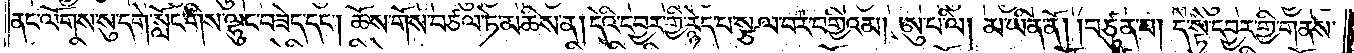ནང་ལོགས་སུ་དགེ་སློང་གིས་ལྷུང་བཟེད་དང༌། ཆོས་གོས་བཙལ་ཏེ་མཆིས་ན། དེའི་དབྱར་གྱི་རྙེད་པ་སྩལ་བར་བགྱིའམ། ཨུ་པ་ལི། མ་ཡིན་ནོ། །བཙུན་པ། དེ་སྟེ་དབྱར་གྱི་གནས་
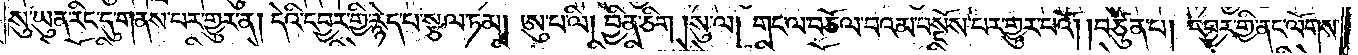སུ་ཡུན་རིང་དུ་གནས་པར་གྱུར་ན། དེའི་དབྱར་གྱི་རྙེད་པ་སྩལ་ཏམ། ཨུ་པ་ལི། བྱིན་ཅིག །སུ་ལ། གང་ལ་བཅོལ་པའམ་བསྔོས་པར་གྱུར་པའོ། །བཙུན་པ། དབྱར་གྱི་ནང་ལོགས་
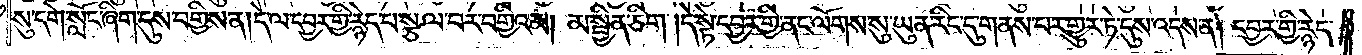སུ་དགེ་སློང་ཞིག་དུས་བགྱིས་ན། དེ་ལ་དབྱར་གྱི་རྙེད་པ་སྩལ་བར་བགྱིའམ། མ་སྦྱིན་ཅིག །དེ་སྟེ་དབྱར་གྱི་ནང་ལོགས་སུ་ཡུན་རིང་དུ་གནས་པར་གྱུར་ཏེ་དུས་འདས་ན། དབྱར་གྱི་རྙེད་
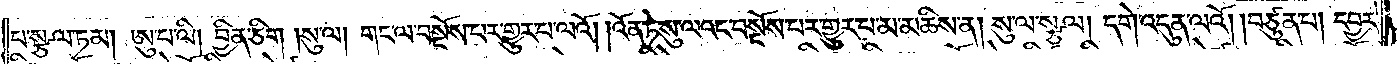པ་སྩལ་ཏམ། ཨུ་པ་ལི། བྱིན་ཅིག །སུ་ལ། གང་ལ་བསྔོས་པར་གྱུར་པ་ལའོ། །འོན་ཏེ་སུ་ལའང་བསྔོས་པར་གྱུར་པ་མ་མཆིས་ན། སུ་ལ་སྩལ། དགེ་འདུན་ལའོ། །བཙུན་པ། དབྱར་
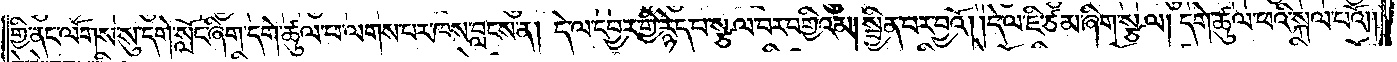གྱི་ནང་ལོགས་སུ་དགེ་སློང་ཞིག་དགེ་ཚུལ་ཕ་ལགས་པར་ཁས་བླངས་ན། དེ་ལ་དབྱར་གྱི་རྙེད་པ་སྩལ་བར་བགྱིའམ། སྦྱིན་པར་བྱའོ། །དེ་ལ་ཇི་ཙམ་ཞིག་སྩལ། དགེ་ཚུལ་ཕའི་སྐལ་པའོ༎
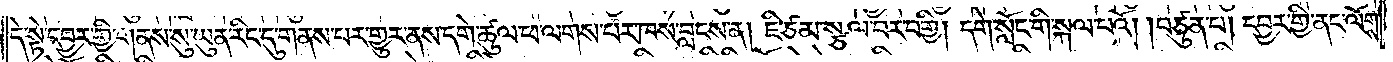དེ་སྟེ་དབྱར་གྱི་གནས་སུ་ཡུན་རིང་དུ་གནས་པར་གྱུར་ནས་དགེ་ཚུལ་ཕ་ལགས་པར་ཁས་བླངས་ན། ཇི་ཙམ་སྩལ་བར་བགྱི། དགེ་སློང་གི་སྐལ་པའོ། །བཙུན་པ། དབྱར་གྱི་ནང་ལོགས་
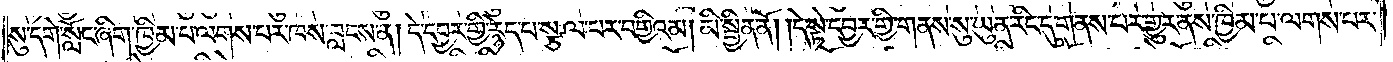སུ་དགེ་སློང་ཞིག་ཁྱིམ་པ་ལགས་པར་ཁས་བླངས་ན། དེ་དབྱར་གྱི་རྙེད་པ་སྩལ་པར་བགྱིའམ། མི་སྦྱིན་ནོ། །དེ་སྟེ་དབྱར་གྱི་གནས་སུ་ཡུན་རིང་དུ་གནས་པར་གྱུར་ནས་ཁྱིམ་པ་ལགས་པར་
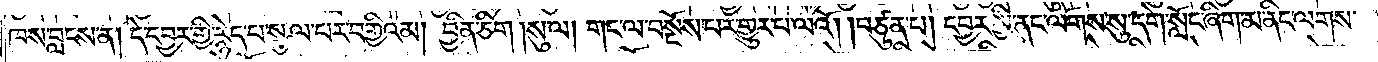ལས་བླངས་ན། དེ་དབྱར་གྱི་རྙེད་པ་སྩལ་པར་བགྱིའམ། བྱིན་ཅིག །སུ་ལ། གང་ལ་བསྔོས་པར་གྱུར་པ་ལའོ། །བཙུན་པ། དབྱར་གྱི་ནང་ལོགས་སུ་དགེ་སློང་ཞིག་མ་ནིང་ལགས་
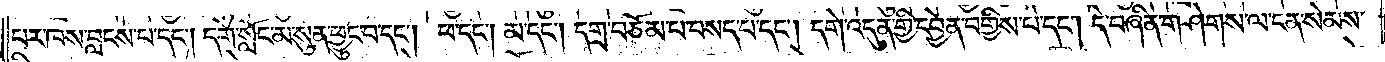པར་ཁས་བླངས་པ་དང༌། དགེ་སློང་མ་སུན་ཕྱུང་བ་དང༌། ཕ་དང༌། མ་དང༌། དགྲ་བཅོམ་པ་བསད་པ་དང༌། དགེ་འདུན་གྱི་དབྱེན་བགྱིས་པ་དང༌། དེ་བཞིན་གཤེགས་ལ་ངན་སེམས་
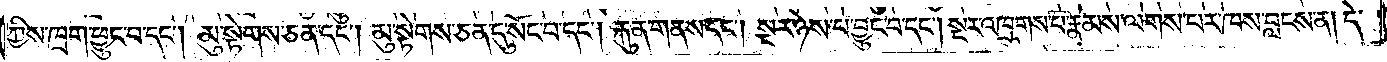ཀྱིས་ཁྲག་ཕྱུང་བ་དང༌། མུ་སྟེགས་ཅན་དང༌། མུ་སྟེགས་ཅན་དུ་སོང་བ་དང༌། རྐུན་གནས་དང༌། སྔར་ཉེས་པ་བྱུང་བ་དང༌། སྔར་འཁྲུགས་པ་རྣམས་ལགས་པར་ཁས་བླངས་ན། དེ་
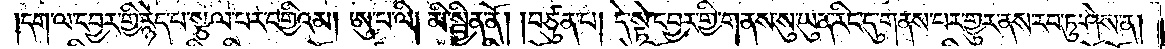།དག་ལ་དབྱར་གྱི་རྙེད་པ་སྩལ་པར་བགྱིའམ། ཨུ་པ་ལི། མི་སྦྱིན་ནོ། །བཙུན་པ། དེ་སྟེ་དབྱར་གྱི་གནས་སུ་ཡུན་རིང་དུ་གནས་པར་གྱུར་ནས་རབ་ཏུ་ཤེས་ན།
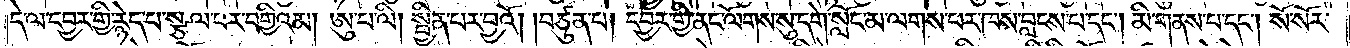དེ་ལ་དབྱར་གྱི་རྙེད་པ་སྩལ་བར་བགྱིའམ། ཨུ་པ་ལི། སྦྱིན་པར་བྱའོ། །བཙུན་པ། དབྱར་གྱི་ནང་ལོགས་སུ་དགེ་སློང་མ་ལགས་པར་ཁས་བླངས་པ་དང༌། མི་གནས་པ་དང༌། སོ་སོར་
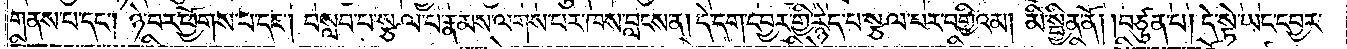གནས་པ་དང༌། ཉེ་བར་ཕྱོགས་པ་དང༌། བསླབ་པ་སྩལ་པ་རྣམས་ལགས་པར་ཁས་བླངས་ན། དེ་དག་དབྱར་གྱི་རྙེད་པ་སྩལ་པར་བགྱིའམ། མི་སྦྱིན་ནོ། །བཙུན་པ། དེ་སྟེ་ཡང་དབྱར་
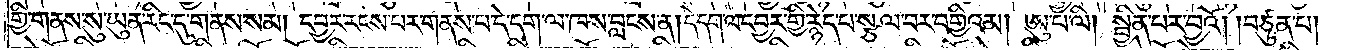གྱི་གནས་སུ་ཡུན་རིང་དུ་གནས་སམ། དབྱར་རངས་པར་གནས་པ་དེ་དག་ལ་ཁས་བླངས་ན། དེ་དག་ལ་དབྱར་གྱི་རྙེད་པ་སྩལ་པར་བགྱིའམ། ཨུ་པ་ལི། སྦྱིན་པར་བྱའོ། །བཙུན་པ།
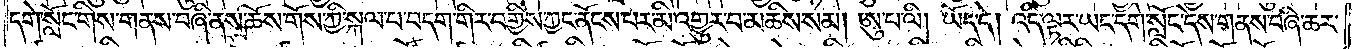དགེ་སློང་གིས་གནས་བཞི་ནས་ཆོས་གོས་ཀྱི་སྐལ་པ་བདག་གིར་བགྱིས་ཀྱང་ནོངས་པར་མི་འགྱུར་བ་མཆིས་སམ། ཨུ་པ་ལི། ཡོད་དེ། འདི་ལྟར་ཡང་དགེ་སློང་དེས་གནས་བཞི་ཆར་
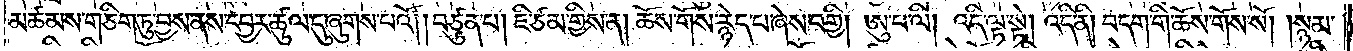མཚམས་གཅིག་ཏུ་བྱས་ནས་དབྱར་ཚུལ་དུ་ཞུགས་པའོ། །བཙུན་པ། ཇི་ཙམ་གྱིས་ན། ཆོས་གོས་རྙེད་པ་ཞེས་བགྱི། ཨུ་པ་ལི། འདི་ལྟ་སྟེ། འདི་ནི། བདག་གི་ཆོས་གོས་སོ། །སྙམ་
